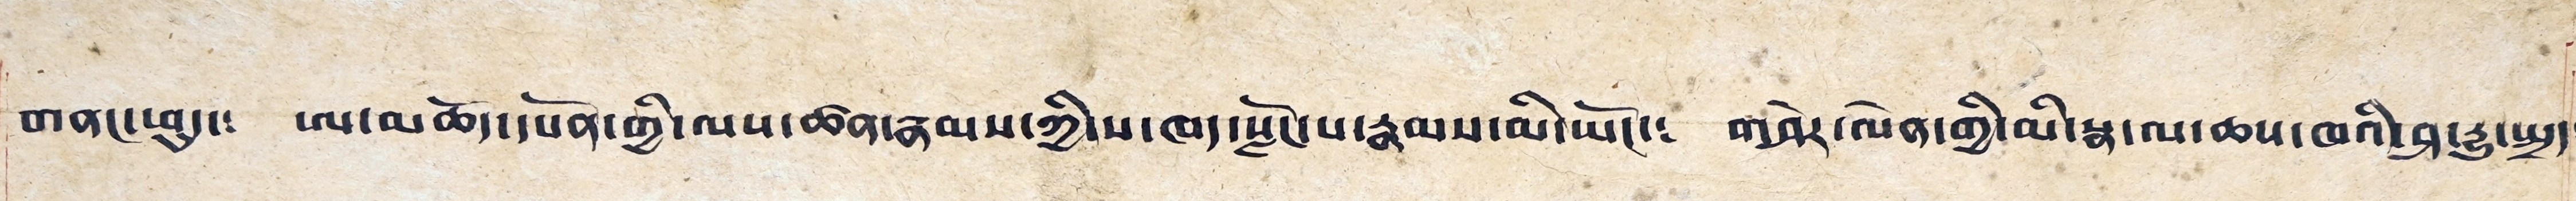གནང་ཕུད་༴ ཨ་མཆོད་དཔོན་གྱི་ལས་ཚན་རྣམས་ཀྱི་ས་ཁད་སློང་པ་རྣམས་མི་ཡོང་༴ གཤེར་ལེན་གྱི་མི་སྣ་ལ་ཆས་ཁའི་ཤ་དྱུ་སྤྲད༴
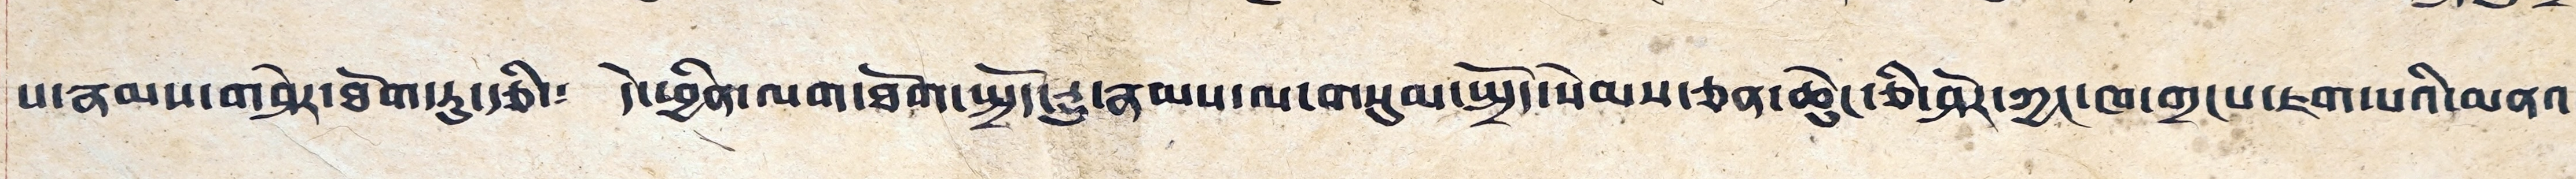པ་རྣམས་གཤེར་ཐོག་ཏུ་རྩི་༴ དེ་ཕྱིན་ལག་ཐོག་སྤྲོད་དྱུ་རྣམས་ལ་གསུམ་སྤྲོད་སེམས་ཅན་ཆེུང་ཅི་ཤེར་ཀྱང་ཁ་གྲངས་ཇག་པའི་མནའ་
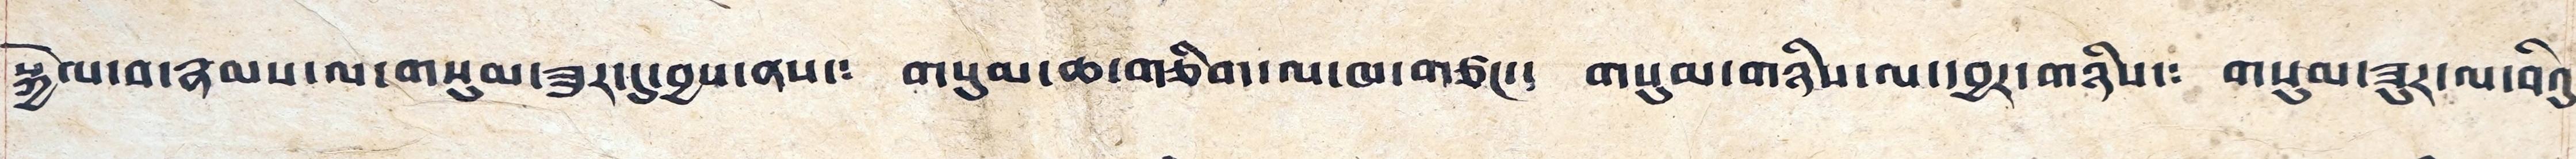སྐྱེལ་བ་རྣམས་ལ་གསུམ་ཟར་དུ་བྱས་ནས་༴ གསུམ་ཆ་གཅིག་ལ་ཁ་གཙང་༴ གསུམ་གཉིས་ལ་དབྱར་གཉིས་༴ གསུམ་ཟུར་ལ་བིའུ༴
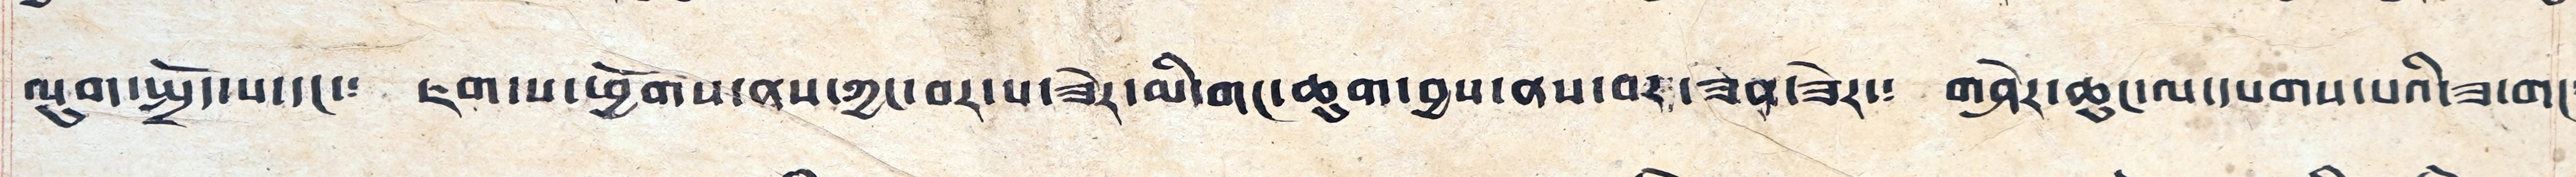ལུག་སྤྲོད་པ་དང་༴ ཇག་པ་ཕྱོགས་ནས་ཀྱང་བར་པ་ཟེར་མི་གང་ཆུག་བྱས་ནས་བར་ཟན་ཟེར་༴ གཤེར་ཆུང་ལ་དཔགས་པའི་ཟ་གང༴
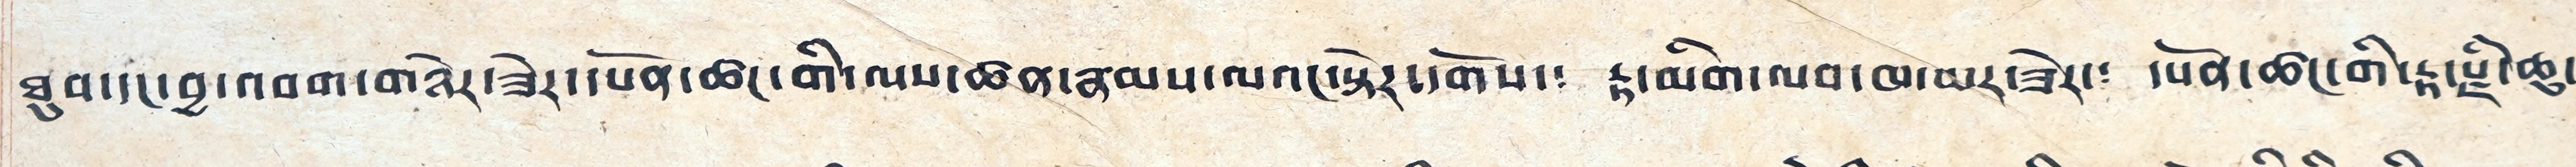ཐུབ་དང་བྱ་འབག་གཉེར་ཟེར་དཔོན་ཚང་གི་ལས་ཚན་རྣམས་ལའང་སྟེར་དགོས་༴ རྟ་མིག་ལབ་ཁ་ཡར་ཟེར་༴ དཔོན་ཚང་གི་རྟ་རྫི་ཆུ་
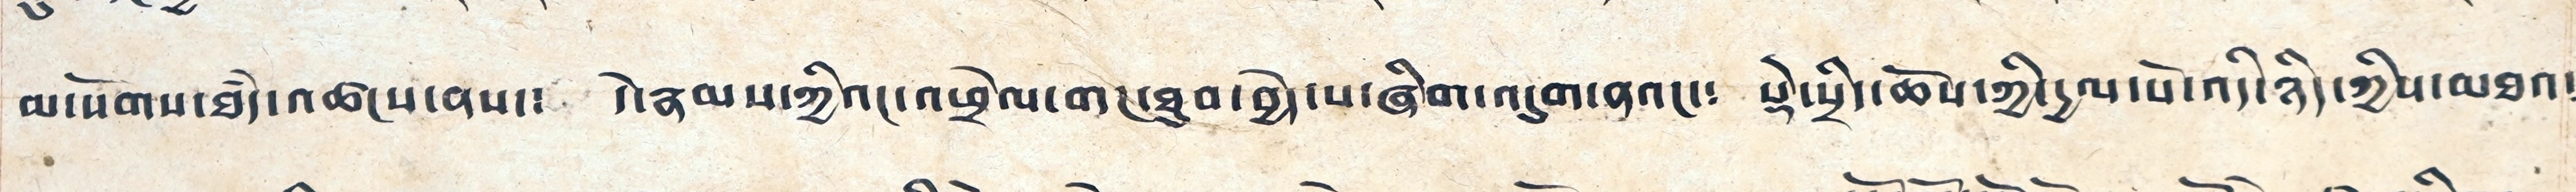མ་སོགས་ཐཾད་འཚངས་ནས་༴ དེ་རྣམས་ཀྱིའང་འཕྲེལ་གང་ཐུབ་བྱེད་པ་ཞིག་འདུག་ནའང་༴ སྡེ་སྲིད་ཆོས་ཀྱི་དྱལ་པོ་འདི་ཉིད་ཀྱིས་མཐའ༴
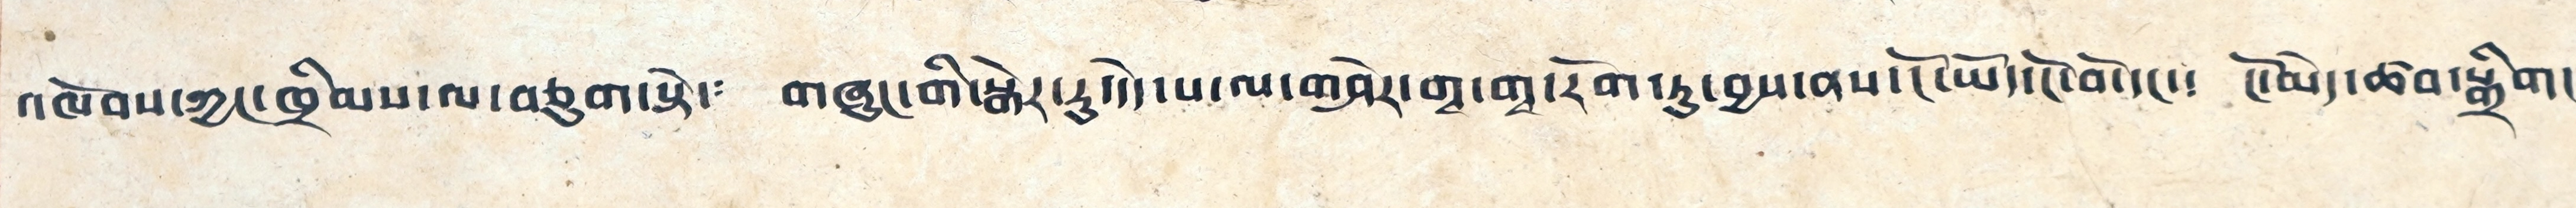འཁོབས་ཀྱང་ཁྲིམས་ལ་བཅུག་སྟེ་༴ གཞུང་གི་སྒེར་རུ་དེད་པ་ལ་གཤེར་གྭ་གྭ་རོག་ཏུ་བྱས་ནས་ངོ་ཡོད་ངོ་བོ་དང་༴ ངོ་མེད་ཚབ་སྒྲིག།
